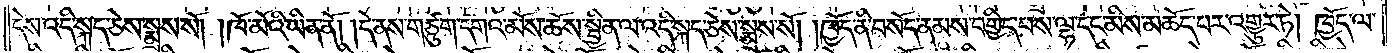དེས་འདི་སྐད་ཅེས་སྨྲས་སོ། །ཁོ་མོའི་ཡིན་ནོ། །དེ་ནས་གཙུག་དགའ་མོས་ཆོས་སྦྱིན་ལ་འདི་སྐད་ཅེས་སྨྲས་སོ། །ཁྱོད་ནི་བསོད་ནམས་བགྱིད་པས་ལྷ་དང་མིས་མཆོད་པར་འགྱུར་ཏེ། ཁྱོད་ལ་
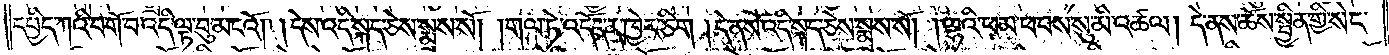དཔྱིད་ཀའི་བགོ་བ་འདི་ལྟ་བུ་མངའོ། །དེས་འདི་སྐད་ཅེས་སྨྲས་སོ། །གལ་ཏེ་འདོད་ན་ཁྱེར་ཅིག །དེ་ནས་འདི་སྐད་ཅེས་སྨྲས་སོ། །ལྷའི་ཕམ་ཕབས་སུ་མི་འཚལ། དེ་ནས་ཆོས་སྦྱིན་གྱི་སེང་
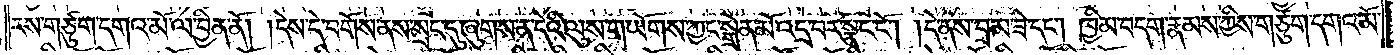རས་གཙུག་དགའ་མོ་ལ་བྱིན་ནོ། །དེས་དེ་བགོས་ནས་སྲང་དུ་ཞུགས་ན་དེའི་ལུས་གཡོགས་ཀྱང་སྒྲེན་མོ་འདྲ་བར་སྣང་ངོ༌། །དེ་ནས་བྲམ་ཟེ་དང༌། ཁྱིམ་བདག་རྣམས་ཀྱིས་གཙུག་དགའ་མོ་
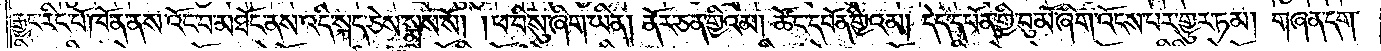རྒྱང་རིང་པོ་ཁོ་ན་ནས་འོང་བ་མཐོང་ནས་འདི་སྐད་ཅེས་སྨྲས་སོ། །ཕ་བི་སུ་ཞིག་ཡིན། ནོར་ཅན་གྱིའམ། ཚོང་དཔོན་གྱིའམ། དེད་དཔོན་གྱི་བུ་མོ་ཞིག་འོངས་པར་གྱུར་ཏམ། གཞན་དག་
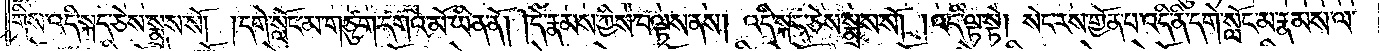གིས་འདི་སྐད་ཅེས་སྨྲས་སོ། །དགེ་སློང་མ་གཙུག་དགའ་མོ་ཡིན་ནོ། །དེར་རྣམས་ཀྱིས་བལྟས་ནས། འདི་སྐད་ཅེས་སྨྲས་སོ། །འདི་ལྟ་སྟེ། སེང་རས་གྱོན་པ་འདི་ནི་དགེ་སློང་མ་རྣམས་ལ་
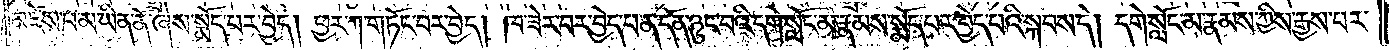མཛེས་པ་མ་ཡིན་ནོ་ཞེས་སྨོད་པར་བྱེད། ཕྱར་ཀ་གཏོང་བར་བྱེད། ཁ་ཟེར་བར་བྱེད་པ་ན་དོན་ཉུང་བའི་དགེ་སློང་མ་རྣམས་སྨོད་པར་བྱེད་པའི་སྐབས་དེ། དགེ་སློང་མ་རྣམས་ཀྱིས་རྒྱས་པར་
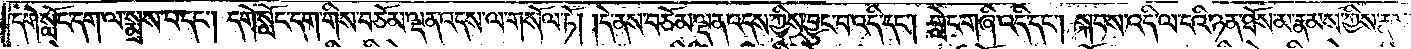དགེ་སློང་དག་ལ་སྨྲས་པ་དང༌། དགེ་སློང་དག་གིས་བཅོམ་ལྡན་འདས་ལ་གསོལ་ཏོ། །དེ་ནས་བཅོམ་ལྡན་འདས་ཀྱིས་བྱུང་བ་འདི་དང༌། གླེང་གཞི་འདི་དང༌། སྐབས་འདི་ལ་ངའི་ཉན་ཐོས་མ་རྣམས་ཀྱིས་རྣམ་
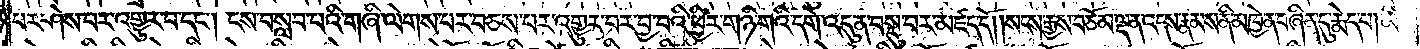པར་ཤེས་པར་འགྱུར་བ་དང༌། ངས་བསླབ་པའི་གཞི་ལེགས་པར་བཅས་པར་འགྱུར་བར་བྱ་བའི་ཕྱིར་གཉི་གའི་དགེ་འདུན་བསྡུ་བར་མཛད་དོ། །སངས་རྒྱས་བཅོམ་ལྡན་འདས་རྣམས་ནི་མཁྱེན་བཞིན་དུ་རྨེད་པ། མི་
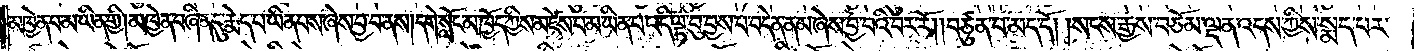མཁྱེན་པ་མ་ཡིན་གྱི། མཁྱེན་བཞིན་དུ་རྨེད་པ་ཡིན་པས་ཞེས་བྱ་བ་ནས། དགེ་སློང་མ་ཁྱོད་ཀྱིས་མཛེས་པ་མ་ཡིན་པ་འདི་ལྟ་བུ་བྱས་པ་བདེན་ནམ་ཞེས་བྱ་བའི་བར་རོ། །བཙུན་པ་མད་དོ། །སངས་རྒྱས་བཅོམ་ལྡན་འདས་ཀྱིས་སྨད་པར་
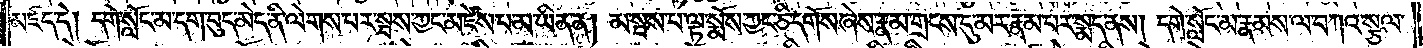མཛད་དེ། དགེ་སློང་མ་དག་བུད་མེད་ནི་ལེགས་པར་སྦས་ཀྱང་མཛེས་པ་མ་ཡིན་ན། མ་སྦས་པ་ལྟ་སྨོས་ཀྱང་ཅི་དགོས་ཞེས་རྣམ་གྲངས་དུ་མར་རྣམ་པར་སྨད་ནས། དགེ་སློང་མ་རྣམས་ལ་བཀའ་སྩལ་
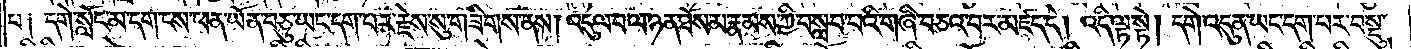པ། དགེ་སློང་མ་དག་ངས་ཕན་ཡོན་བཅུ་ཡང་དག་པར་རྗེས་སུ་གཟིགས་ནས། འདུལ་བ་ལ་ཉན་ཐོས་མ་རྣམས་ཀྱིས་བསླབ་པའི་གཞི་བཅའ་བར་མཛད་དེ། འདི་ལྟ་སྟེ། དགེ་འདུན་ཡང་དག་པར་བསྡུ་
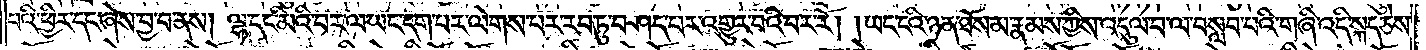བའི་ཕྱིར་དང་ཞེས་བྱ་བ་ནས། ལྷ་དང་མིའི་བར་ལ་ཡང་དག་པར་ལེགས་པར་རབ་ཏུ་བཤད་པར་འགྱུར་བའི་བར་རོ། །ཡང་ངའི་ཉན་ཐོས་མ་རྣམས་ཀྱིས་འདུལ་བ་ལ་བསླབ་པའི་གཞི་འདི་སྐད་ཅེས་
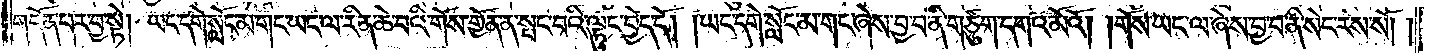གདོན་པར་བྱ་སྟེ། ཡང་དགེ་སློང་མ་གང་ཡང་ལ་རིན་ཆེ་བའི་གོས་གྱོན་ན་སྤང་བའི་ལྟུང་བྱེད་དོ། །ཡང་དགེ་སློང་མ་གང་ཞེས་བྱ་བ་ནི་གཙུག་དགའ་མོའོ། །གོས་ཡང་ལ་ཞེས་བྱ་བ་ནི་སེང་རས་སོ། །
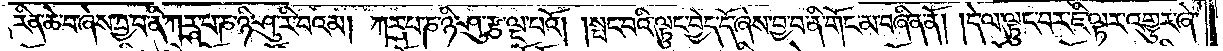རིན་ཆེ་བ་ཞེས་བྱ་བ་ནི་ཀཪྵ་པ་ཎ་ཉི་ཤུ་རི་བའམ། ཀཪྵ་པ་ཎ་ཉི་ཤུ་རྩ་ལྔ་བའོ། །སྤང་བའི་ལྟུང་བྱེད་དོ་ཞེས་བྱ་བ་ནི་གོང་མ་བཞིན་ནོ། །དེ་ལ་ལྟུང་བར་ཇི་ལྟར་འགྱུར་ཞེ་
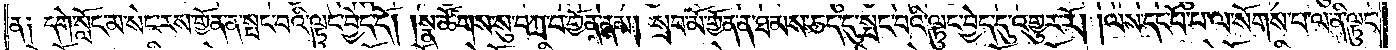ན༑ དགེ་སློང་མ་སེང་རས་གྱོན་ན་སྤང་བའི་ལྟུང་བྱེད་དོ། །སྣ་ཚོགས་སུ་བཀྲ་བ་གྱོན་ནམ། སྲབ་མོ་གྱོན་ན་ཐམས་ཅད་དུ་སྤང་བའི་ལྟུང་བྱེད་དུ་འགྱུར་རོ། །ལས་དང་པོ་པ་ལ་སོགས་པ་ལ་ནི་ལྟུང་
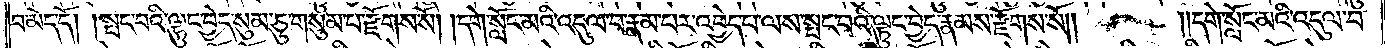བ་མེད་དོ། །སྤང་བའི་ལྟུང་བྱེད་སུམ་ཅུ་གསུམ་པ་རྫོགས་སོ། །དགེ་སློང་མའི་འདུལ་བ་རྣམ་པར་འབྱེད་པ་ལས་སྤང་བའི་ལྟུང་བྱེད་རྣམས་རྫོགས་སོ༎ དགེ་སློང་མའི་འདུལ་བ་
